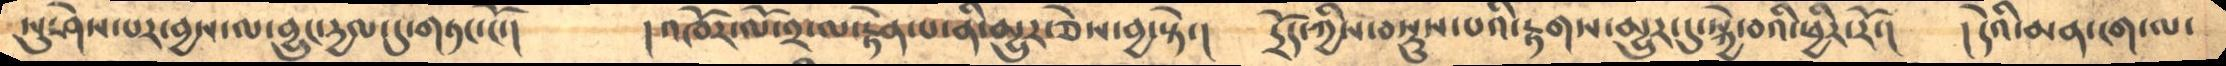སུ་ཤེས་པར་བྱས་ལ་བྱུང་དྱལ་དུ་གཏང་ངོ་།      །འཁོར་ལོ་༢་ལ་རྟེན་པ་ནི་མྱུར་ཅེས་བྱ་སྟེ་།     དྲོད་ཀྱིས་བསྡུས་པའི་རྟགས་མྱུར་དུ་སྐྱེ་བའི་ཕྱིར་རོ་།      །དེའི་མན་ངག་ལ་
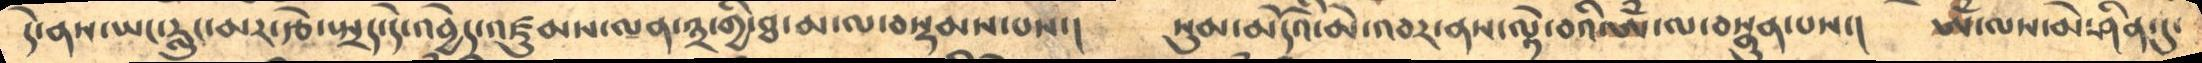དེ་ནས་ཡང་རླུང་མར་རྩེ་སྤྲད་དེ་འབྱེད་འཛུམས་ལན་༣་གྱི་ཐ་མ་ལ་བསྡམས་པས་།      སུམ་མདོའི་མེ་འབར་ནས་ལྟེ་བའི་ཨོཾ་ལ་བསྣུན་པས་།    ཨོཾ་ལས་མེ་ཤིན་དུ་
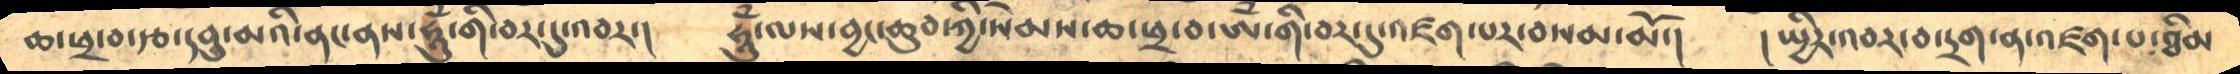ཆ་ཕྲ་བ་རྩ་དབུ་མའི་ནང་ནས་ཧཱུྃ་གི་བར་དུ་འབར་།     ཧཱུྃ་ལས་བྱང་ཆུབ་ཀྱི་སེམས་ཆ་ཕྲ་བ་ཨྃ་གི་བར་དུ་འཛག་པར་བསམ་མོ་།     །སྤྱིར་འབར་བ་དྲག་ན་འཛག་པ་ཐིམ
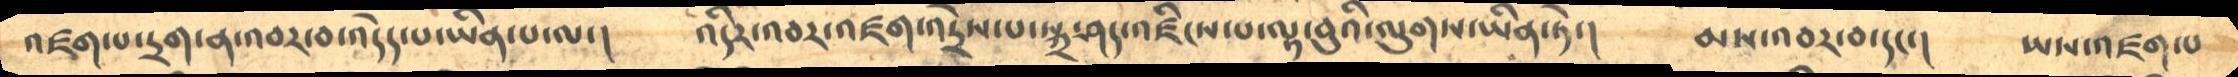འཛག་པ་དྲག་ན་འབར་བ་འདེད་པ་ཡིན་པ་ལ་།     འདིར་འབར་འཛག་འདྲེས་པ་སྐྲ་ཤད་འཛིངས་པ་ལྟ་བུའི་ལུགས་ཡིན་ཏེ་།     མས་འབར་བ་དང་།     ཡས་འཛག་པ
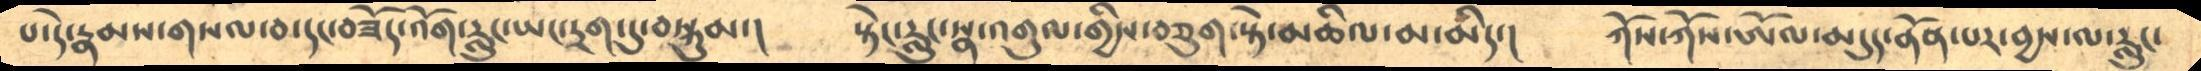པ་དེ་རྣམས་གསལ་བ་དང་བཟོད་འོག་རླུང་ཡང་དྲག་དུ་བསྐུམ་།     སྟེང་རླུང་སྣ་འགུལ་གྱིས་བཅུག་སྟེ་མཆིལ་མ་མིད་།     ཀོས་ཀོས་ཨོལ་མདུད་ནོན་པར་བྱས་ལ་རླུང་
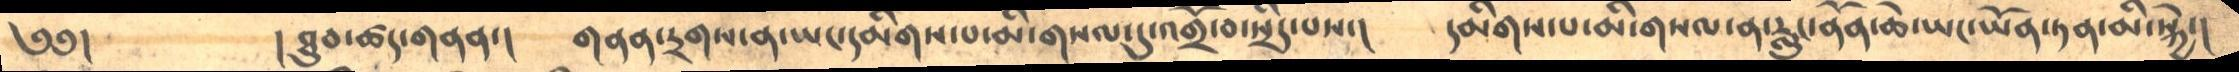༄༅།         །ཐུབ་ཚད་གནན་།      གནན་དྲགས་ན་ཡང་དམིགས་པ་མི་གསལ་དུ་འགྲོ་བ་སྲིད་པས་།      དམིགས་པ་མི་གསལ་ན་རླུང་ནོན་ཆེ་ཡང་ཡོན་ཏན་མི་སྐྱེ་།
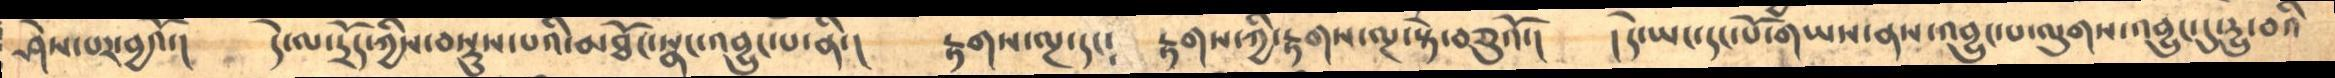ཤེས་པར་བྱའོ་།      དེ་ལ་དྲོད་ཀྱིས་བསྡུས་པའི་མཐོང་སྣང་འབྱུང་པ་ནི་།     རྟགས་ལྔ་དང༴   རྟགས་ཀྱི་རྟགས་ལྔ་སྟེ་བཅུའོ་།      །དེ་ཡང་དང་པོ་གཡས་ནས་འབྱུང་པ་ལུགས་འབྱུང་དུ་དྱུ་བའི
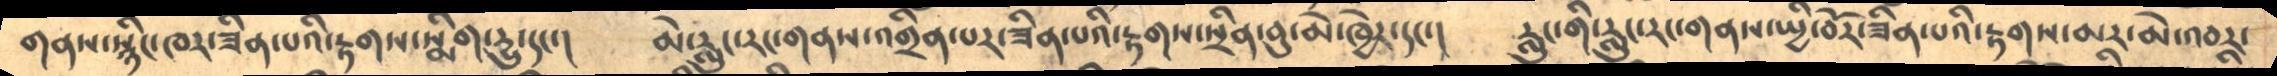གནས་སྙིང་ཁར་ཟིན་པའི་རྟགས་སྨིག་དྱུ་དང་།      མེ་རླུང་རང་གནས་འགྲིན་པར་ཟིན་པའི་རྟགས་སྲིན་བུ་མེ་ཁྱེར་དང་།      རླུང་གི་རླུང་རང་གནས་སྤྱི་བོར་ཟིན་པའི་རྟགས་མར་མེ་འབར་
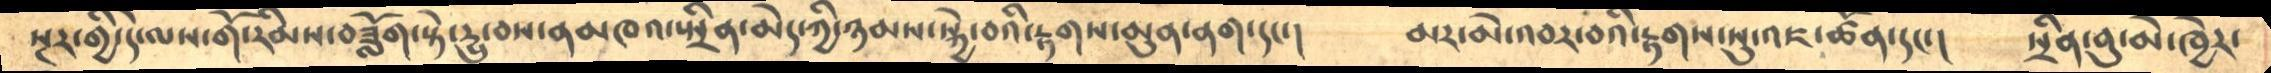སྔར་གྱི་དེ་ལས་གོ་རིམས་བཟློག་སྟེ་དྱུ་བས་ནམཁའ་སྤྲིན་མེད་ཀྱི་ཉམས་སྐྱེ་བའི་རྟགས་མུན་ནག་དང་།     མར་མེ་འབར་བའི་རྟགས་སུ་འཇ་ཚོན་དང་།  སྲིན་བུ་མེ་ཁྱེར་
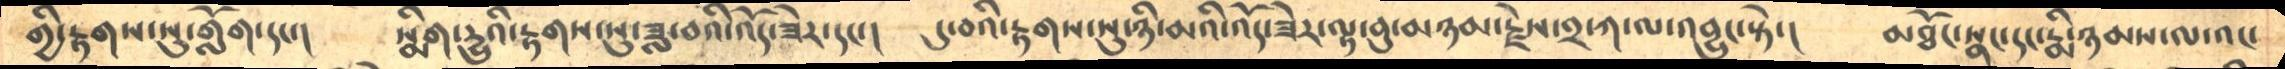གྱི་རྟགས་སུ་གློག་དང་།     སྨིག་དྱུའི་རྟགས་སུ་ཟླ་བའི་འོད་ཟེར་དང་།     དུ་བའི་རྟགས་སུ་ཉི་མའི་འོད་ཟེར་ལྟ་བུ་མཉམ་རྗེས་༢་ཀ་ལ་འབྱུང་སྟེ་།     མཐོང་སྣང་དང་རྨི་ཉམས་ལ་འང་
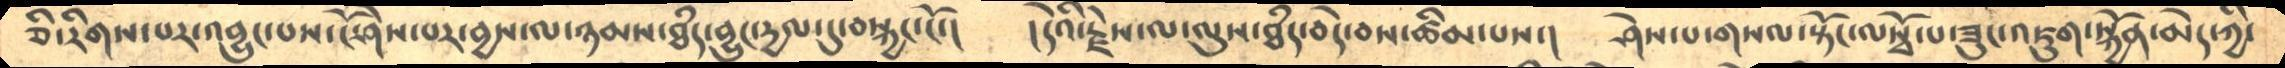ཅི་རིགས་པར་འབྱུང་པས་ངོ་ཤེས་པར་བྱས་ལ་ཉམས་ཐཾད་བྱུང་དྱལ་དུ་བསྐྱང་ངོ་།     །དེའི་རྗེས་ལ་ལུས་ཐཾད་བདེ་བས་ཚིམ་པས་།     ཤེས་པ་གསལ་སྟོང་ལསྭོ་པ་ཟུང་འཇུག་སྐྱོན་མེད་ཀྱི་
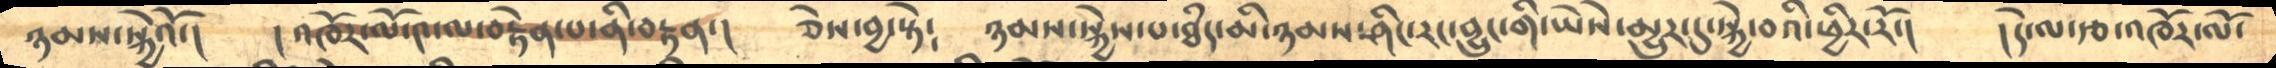ཉམས་སྐྱེའོ་།      །འཁོར་ལོ་༤་ལ་བརྟེན་པ་ནི་བརྟན་།    ཅེས་བྱ་སྟེ༴     ཉམས་སྐྱེས་པ་ཐཾད་མི་ཉམས་ཤིང་རང་བྱུང་གི་ཡཻས་མྱུར་དུ་སྐྱེ་བའི་ཕྱིར་རོ་།     །དེ་ལ་རྩ་འཁོར་ལོ་
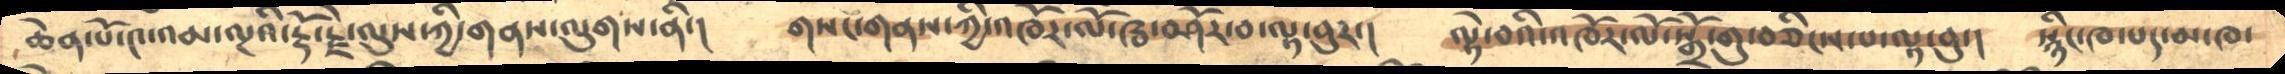ཆེན་པོ་༤་འམ་ལྔའི་རྡོ་རྗེ་ལུས་ཀྱི་གནས་ལུགས་ནི་།     གསང་གནས་ཀྱི་འཁོར་ལོ་ཝ་བཤོར་བ་ལྟ་བུར་།    ལྟེ་བའི་འཁོར་ལོ་སྒྲོ་གུ་བཅིངས་པ་ལྟ་བུ་།    སྙིང་ཁ་པད་མ་ཁ་
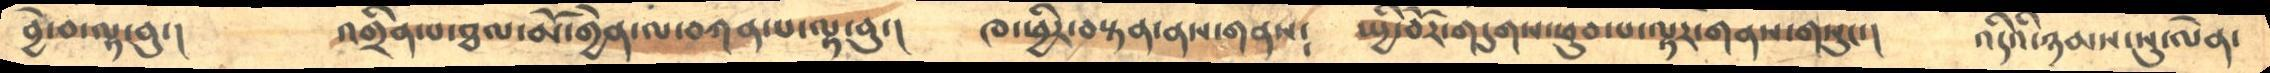བྱེ་བ་ལྟ་བུ་།     འགྲིན་པ་ཐལ་མོ་གྱེན་ལ་བཀན་པ་ལྟ་བུ་།     ཁ་ཕྱིར་བསྟན་ནས་གནས༴     སྤྱི་བོར་གདུགས་ཕུབ་པ་ལྟར་གནས་གསུང་།      འདིའི་ཉམས་སུ་ལེན་
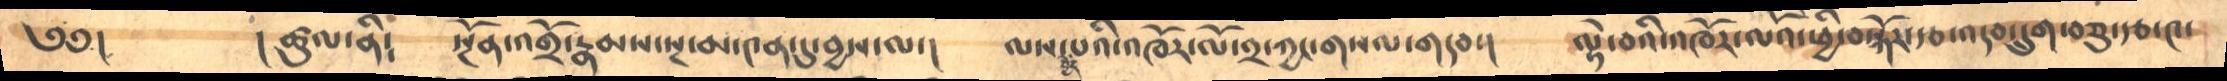༄༅།     ། ཚུལ་ནི༴    སྔོན་འགྲོ་རྣམས་སྔ་མ་༤ན་དུ་བྱས་ལ་།  ལས་བྱེད་པའི་འཁོར་ལོ་༢་ཀྱང་གསལ་གདབ་།  ལྟེ་བའི་འཁོར་ལོའི་ཕྱི་བསྐོར་རྩ་འདབ་དྲུག་བཅུ་རྩ་༤་
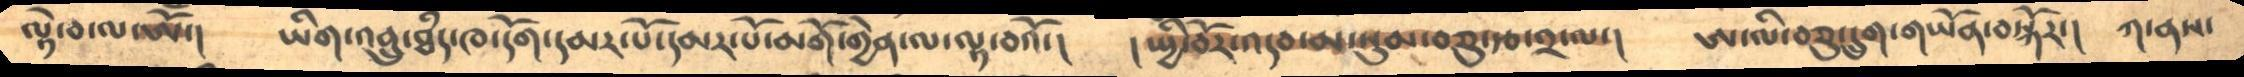ལྟེ་བ་ལ་ཨོཾ་།    ཡིག་འབྲུ་ཐཾད་ཁ་དོག་དམར་པོ་དམར་པོ་མགོ་གྱེན་ལ་ལྟ་བའོ་།       །སྤྱི་བོར་འདབ་མ་སུམ་བཅུ་རྩ་༢་ལ་།   ཨ་ལི་བཅུ་དྲུག་གཡོན་བསྐོར་།   ཀ་ནས་
